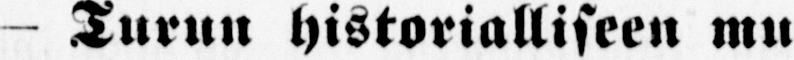- Turun historialliseen mu-
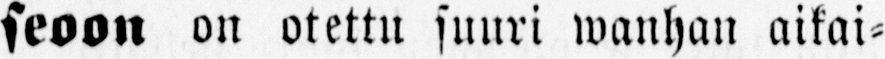seoon on otettu suuri wanhan aikai-
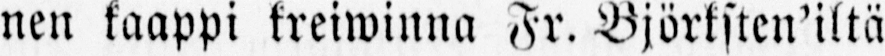nen kaappi kreiwinna Fr. Björksten’iltä
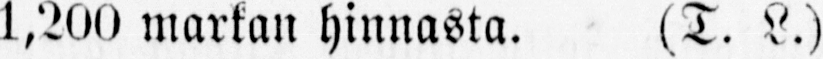1,200 markan hinnasta. (T. L.)
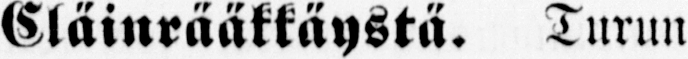— Cläinrääkkäystä. Turun
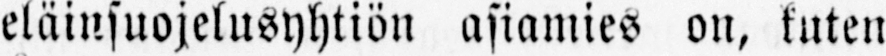eläinsuojelusyhtiön asiamies on, kuten
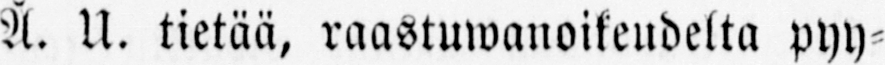Å. U. tietää, raastuwanoikeudelta pyy-
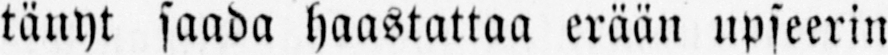tänyt saada haastattaa erään upseerin
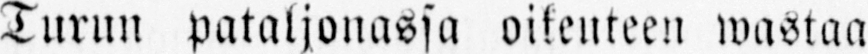Turun pataljonassa oikeuteen wastaa-
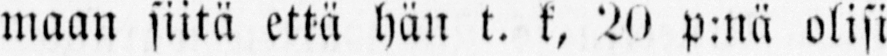maan siitä että hän t. k, 20 p:nä olisi
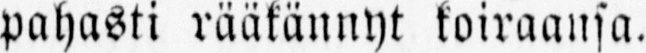pahasti rääkännyt koiraansa.
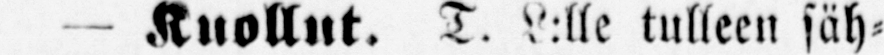— Kuollut. T. L:lle tulleen säh-
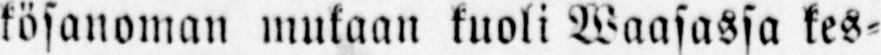kösanoman mukaan kuoli Waasassa kes-
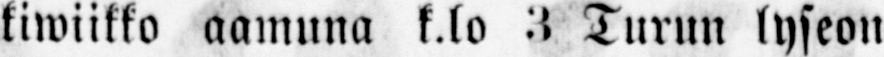tiwiikko aamuna k.lo 3 Turun lyseon
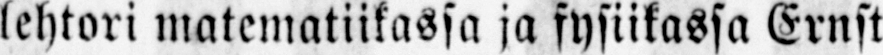lehtori matematiikassa ja fysiikassa Ernst
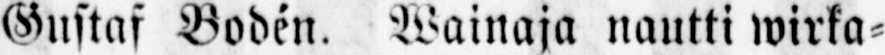Gustaf Bodén. Wainaja nautti wirka-
